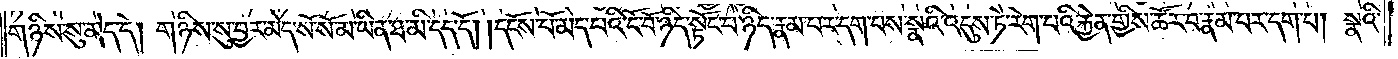གཉིས་སུ་མེད་དེ། གཉིས་སུ་བྱར་མེད་སོ་སོ་མ་ཡིན་ཐ་མི་དད་དོ། །དངོས་པོ་མེད་པའི་ངོ་བོ་ཉིད་སྟོང་པ་ཉིད་རྣམ་པར་དག་པས་སྣའི་འདུས་ཏེ་རེག་པའི་རྐྱེན་གྱིས་ཚོར་བ་རྣམ་པར་དག་པ། སྣའི་
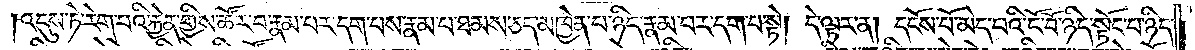འདུས་ཏེ་རེག་པའི་རྐྱེན་གྱིས་ཚོར་བ་རྣམ་པར་དག་པས་རྣམ་པ་ཐམས་ཅད་མཁྱེན་པ་ཉིད་རྣམ་པར་དག་པ་སྟེ། དེ་ལྟར་ན། དངོས་པོ་མེད་པའི་ངོ་བོ་ཉིད་སྟོང་པ་ཉིད་
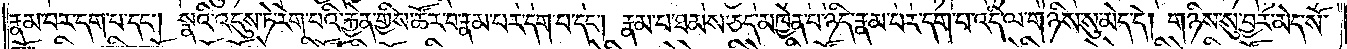རྣམ་པར་དག་པ་དང༌། སྣའི་འདུས་ཏེ་རེག་པའི་རྐྱེན་གྱིས་ཚོར་བ་རྣམ་པར་དག་པ་དང༌། རྣམ་པ་ཐམས་ཅད་མཁྱེན་པ་ཉིད་རྣམ་པར་དག་པ་འདི་ལ་གཉིས་སུ་མེད་དེ། གཉིས་སུ་བྱར་མེད་སོ་
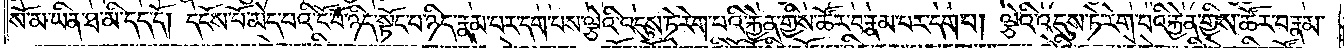སོ་མ་ཡིན་ཐ་མི་དད་དོ། དངོས་པོ་མེད་པའི་ངོ་བོ་ཉིད་སྟོང་པ་ཉིད་རྣམ་པར་དག་པས་ལྕེའི་འདུས་ཏེ་རེག་པའི་རྐྱེན་གྱིས་ཚོར་བ་རྣམ་པར་དག་པ། ལྕེའི་འདུས་ཏེ་རེག་པའི་རྐྱེན་གྱིས་ཚོར་བ་རྣམ་
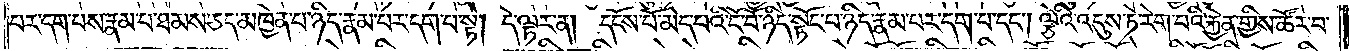པར་དག་པས་རྣམ་པ་ཐམས་ཅད་མཁྱེན་པ་ཉིད་རྣམ་པར་དག་པ་སྟེ། དེ་ལྟར་ན། དངོས་པོ་མེད་པའི་ངོ་བོ་ཉིད་སྟོང་པ་ཉིད་རྣམ་པར་དག་པ་དང༌། ལྕེའི་འདུས་ཏེ་རེག་པའི་རྐྱེན་གྱིས་ཚོར་བ་
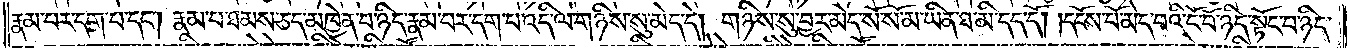རྣམ་པར་དག་པ་དང༌། རྣམ་པ་ཐམས་ཅད་མཁྱེན་པ་ཉིད་རྣམ་པར་དག་པ་འདི་ལ་གཉིས་སུ་མེད་དེ། གཉིས་སུ་བྱར་མེད་སོ་སོ་མ་ཡིན་ཐ་མི་དད་དོ། །དངོས་པོ་མེད་པའི་ངོ་བོ་ཉིད་སྟོང་པ་ཉིད་
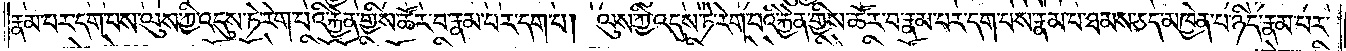རྣམ་པར་དག་པས་ལུས་ཀྱི་འདུས་ཏེ་རེག་པའི་རྐྱེན་གྱིས་ཚོར་བ་རྣམ་པར་དག་པ། ལུས་ཀྱི་འདུས་ཏེ་རེག་པའི་རྐྱེན་གྱིས་ཚོར་བ་རྣམ་པར་དག་པས་རྣམ་པ་ཐམས་ཅད་མཁྱེན་པ་ཉིད་རྣམ་པར་
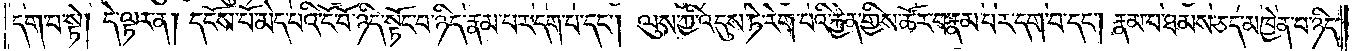དག་པ་སྟེ། དེ་ལྟར་ན། དངོས་པོ་མེད་པའི་ངོ་བོ་ཉིད་སྟོང་པ་ཉིད་རྣམ་པར་དག་པ་དང༌། ལུས་ཀྱི་འདུས་ཏེ་རེག་པའི་རྐྱེན་གྱིས་ཚོར་བ་རྣམ་པར་དག་པ་དང༌། རྣམ་པ་ཐམས་ཅད་མཁྱེན་པ་ཉིད་
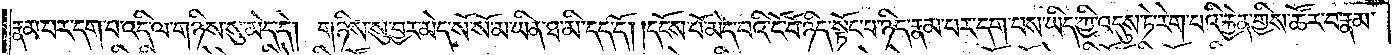རྣམ་པར་དག་པ་འདི་ལ་གཉིས་སུ་མེད་དེ། གཉིས་སུ་བྱར་མེད་སོ་སོ་མ་ཡིན་ཐ་མི་དད་དོ། །དངོས་པོ་མེད་པའི་ངོ་བོ་ཉིད་སྟོང་པ་ཉིད་རྣམ་པར་དག་པས་ཡིད་ཀྱི་འདུས་ཏེ་རེག་པའི་རྐྱེན་གྱིས་ཚོར་བ་རྣམ་
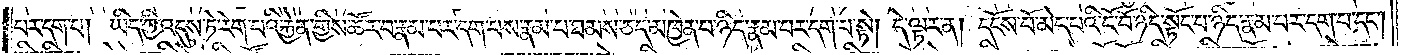པར་དག་པ། ཡིད་ཀྱི་འདུས་ཏེ་རེག་པའི་རྐྱེན་གྱིས་ཚོར་བ་རྣམ་པར་དག་པས་རྣམ་པ་ཐམས་ཅད་མཁྱེན་པ་ཉིད་རྣམ་པར་དག་པ་སྟེ། དེ་ལྟར་ན། དངོས་པོ་མེད་པའི་ངོ་བོ་ཉིད་སྟོང་པ་ཉིད་རྣམ་པར་དག་པ་དང༌།
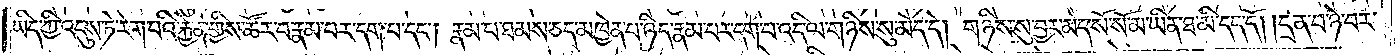ཡིད་ཀྱི་འདུས་ཏེ་རེག་པའི་རྐྱེན་གྱིས་ཚོར་བ་རྣམ་པར་དག་པ་དང༌། རྣམ་པ་ཐམས་ཅད་མཁྱེན་པ་ཉིད་རྣམ་པར་དག་པ་འདི་ལ་གཉིས་སུ་མེད་དེ། གཉིས་སུ་བྱར་མེད་སོ་སོ་མ་ཡིན་ཐ་མི་དད་དོ། །དྲན་པ་ཉེ་བར་
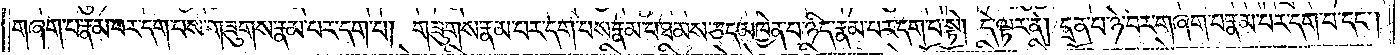གཞག་པ་རྣམ་པར་དག་པས་གཟུགས་རྣམ་པར་དག་པ། གཟུགས་རྣམ་པར་དག་པས་རྣམ་པ་ཐམས་ཅད་མཁྱེན་པ་ཉིད་རྣམ་པར་དག་པ་སྟེ། དེ་ལྟར་ན། དྲན་པ་ཉེ་བར་གཞག་པ་རྣམ་པར་དག་པ་དང༌།
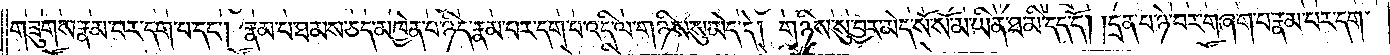གཟུགས་རྣམ་པར་དག་པ་དང༌། རྣམ་པ་ཐམས་ཅད་མཁྱེན་པ་ཉིད་རྣམ་པར་དག་པ་འདི་ལ་གཉིས་སུ་མེད་དེ། གཉིས་སུ་བྱར་མེད་སོ་སོ་མ་ཡིན་ཐ་མི་དད་དོ། །དྲན་པ་ཉེ་བར་གཞག་པ་རྣམ་པར་དག་
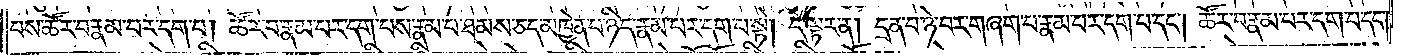པས་ཚོར་བ་རྣམ་པར་དག་པ། ཚོར་བ་རྣམ་པར་དག་པས་རྣམ་པ་ཐམས་ཅད་མཁྱེན་པ་ཉིད་རྣམ་པར་དག་པ་སྟེ། དེ་ལྟར་ན། དྲན་པ་ཉེ་བར་གཞག་པ་རྣམ་པར་དག་པ་དང༌། ཚོར་བ་རྣམ་པར་དག་པ་དང༌།
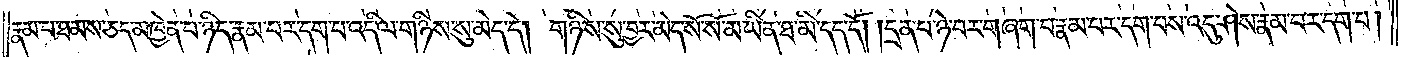རྣམ་པ་ཐམས་ཅད་མཁྱེན་པ་ཉིད་རྣམ་པར་དག་པ་འདི་ལ་གཉིས་སུ་མེད་དེ། གཉིས་སུ་བྱར་མེད་སོ་སོ་མ་ཡིན་ཐ་མི་དད་དོ། །དྲན་པ་ཉེ་བར་གཞག་པ་རྣམ་པར་དག་པས་འདུ་ཤེས་རྣམ་པར་དག་པ།
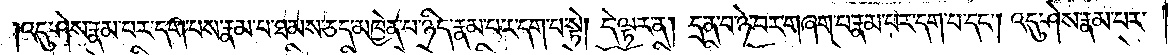འདུ་ཤེས་རྣམ་པར་དག་པས་རྣམ་པ་ཐམས་ཅད་མཁྱེན་པ་ཉིད་རྣམ་པར་དག་པ་སྟེ། དེ་ལྟར་ན། དྲན་པ་ཉེ་བར་གཞག་པ་རྣམ་པར་དག་པ་དང༌། འདུ་ཤེས་རྣམ་པར་
